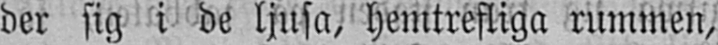der sig i de ljusa, hemtrefliga rummen,
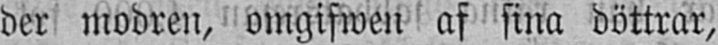der modren, omgifwen af sina döttrar,
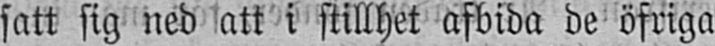satt sig ned att i stillhet afbida de öfriga
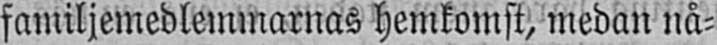familjemedlemmarnas hemkomst, medan nå-
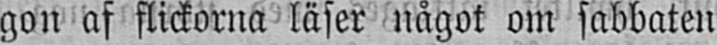gon af flickorna läser något om sabbaten
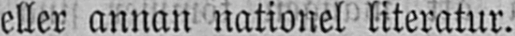eller annan nationel literatur.
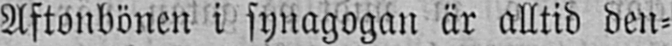Aftonbönen i synagogan är alltid den-
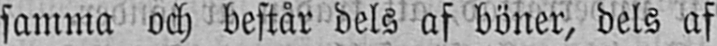samma och består dels af böner, dels af
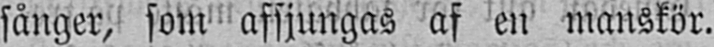sånger, som afsjungas af en manskör.
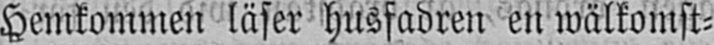Hemkommen läser husfadren en wälkomst-
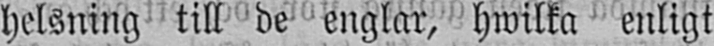helsning till de englar, hwilka enligt
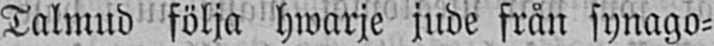Talmud följa hwarje jude från synago-
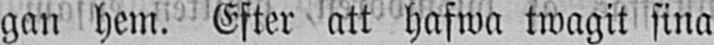gan hem. Efter att hafwa twagit sina
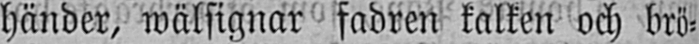händer, wälsignar fadren kalken och brö-
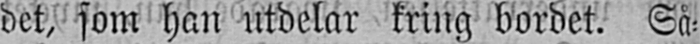det, som han utdelar kring bordet. Så-
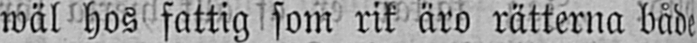wäl hos fattig som rik äro rätterna både
